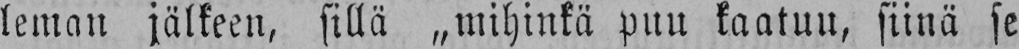leman jälkeen, sillä „mihinkä puu kaatuu, siinä se
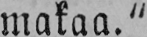makaa."
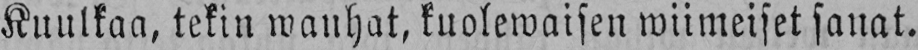Kuulkaa, tekin wanhat, kuolewaisen wiimeiset sanat.
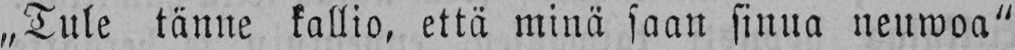„Tule tänne kallio, että minä saan sinua neuwoa"
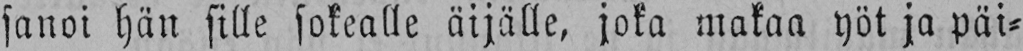sanoi hän sille sokealle äijälle, joka makaa yöt ja päi-
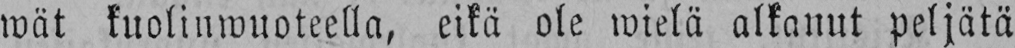wät kuolinwuoteella, eikä ole wielä alkanut peljätä
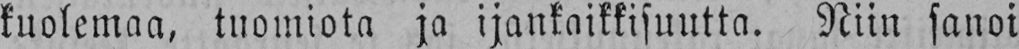kuolemaa, tuomiota ja ijankaikkisuutta. Niin sanoi
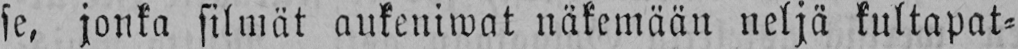se, jonka silmät aukeniwat näkemään neljä kultapat-
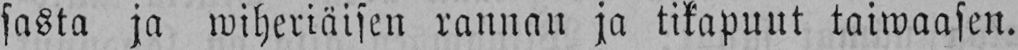sasta ja wiheriäisen rannan ja tikapuut taiwaasen.
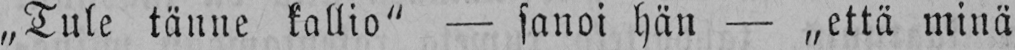„Tule tänne kallio" - sanoi hän - „että minä
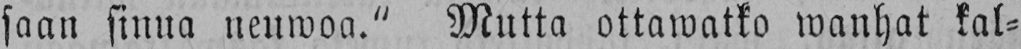saan sinua neuwoa." Mutta ottawatko wanhat kal-
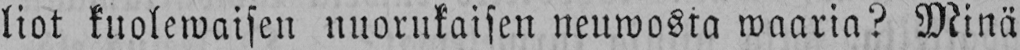liot kuolewaisen nuorukaisen neuwosta waaria? Minä
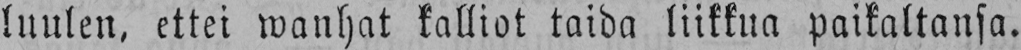luulen, ettei wanhat kalliot taida liikkua paikaltansa.
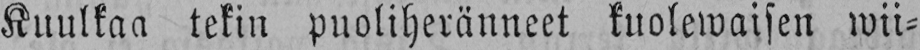Kuulkaa tekin puoliheränneet kuolewaisen wii-
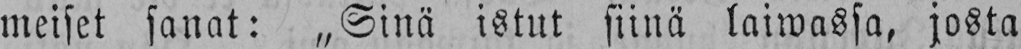meiset sanat: „Sinä istut siinä laiwassa, josta
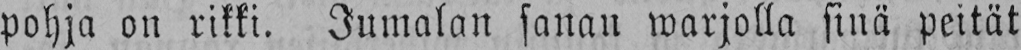pohja on rikki. Jumalan sanan warjolla sinä peität
